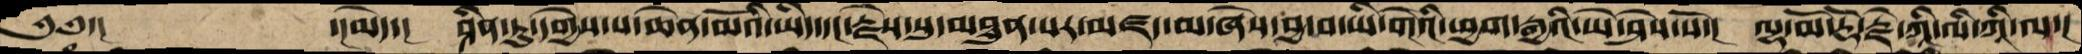༄༅་།        ་།མེད་།   ཤིན་ཏུ་དགྱེས་པ་ཆེན་མོའི་ཡིད་དང་རྗེས་སུ་མཐུན་པར་མཛད་མ་ཞེས་བྱ་བ་ཡི་གེའི་ཕྱག་རྒྱའི་ཡེ་ཤེས་སོ་།  ལྷ་མོ་རྡོ་རྗེ་ཀཱི་ལི་ཀཱི་ལ་།
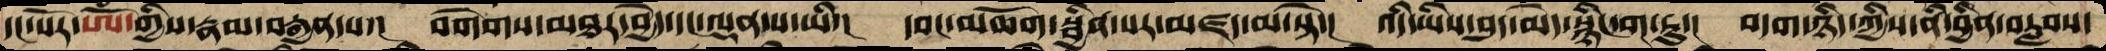དང་པོར་ཨོཾ་གྱིས་རྣམ་བརྒྱན་པ་།  བགེགས་མཐར་བྱེད་དང་ལྡན་པ་ཡི་།  དབང་མཆོག་སྦྱིན་པར་མཛད་མ་སྟེ་།  འདི་ཡིས་བུད་མེད་སྙིང་ག་རུ་།  བདག་ཉིད་ཀྱིས་ནི་བྱིན་བརླབས་
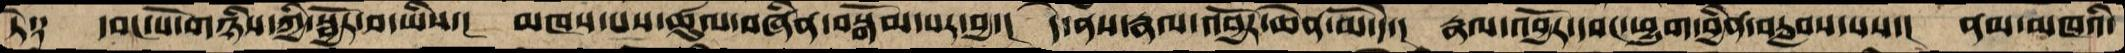ཏེ༑  དབང་པོ་གཉིས་ཀྱི་སྦྱོར་བ་ཡིས་།  མཁས་པས་ཚུལ་བཞིན་བསྒོམ་པར་བྱ་།  དེ་ནས་རྣལ་འབྱོར་ཆེན་མོ་དེ་།  རྣལ་འབྱོར་དབང་ཕྱུག་བྱིན་བརླབས་པས་།  ནམ་མཁའི་
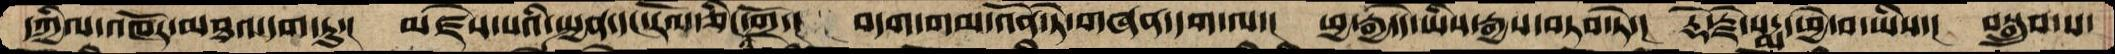དཀྱིལ་འཁོར་མཐའ་དག་ཏུ་།  མཛེས་པའི་སྤྱན་དང་རོལ་ཅིང་འགྲོ་།  བདག་གམ་འོན་ཏེ་གཞན་དག་ལ་།  ཕྱ་རྒྱ་དེ་ཡིས་རྒྱས་བཏབ་ཏེ་།  རྡོ་རྗེ་པདྨ་ཕྱེ་བ་ཡིས་།  བསྒྲུབ་པ་
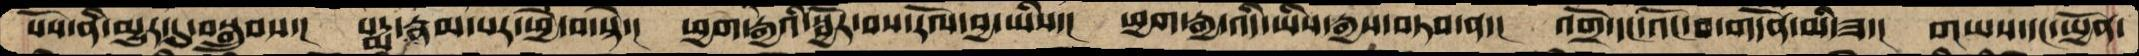པོས་ནི་མྱུར་དུ་བསྒྲུབས་།  པདྨ་རྣམ་པར་ཕྱེ་བ་སྟེ་།  ཕྱག་རྒྱའི་སྦྱོར་བས་རོལ་བྱ་ཡིས་།  ཕྱག་རྒྱ་འདི་ཡིས་རྒྱས་བཏབ་ན་།  འགྲོ་དང་འོང་བ་གདོན་མི་ཟ་།  གཡས་དང་ཡྱོན་
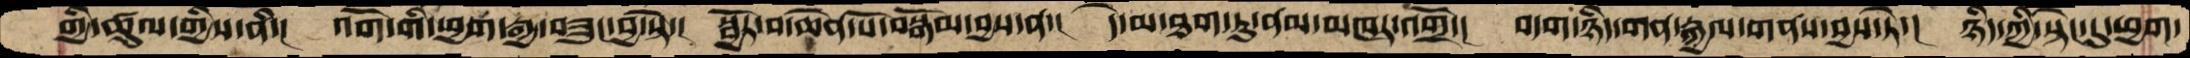གྱི་ཚུལ་གྱིས་ནི་།  འོག་གི་ཕྱག་རྒྱ་བཟུང་བྱ་སྟེ་།  སྦྱོར་བ་ཆེན་པོ་བསྒོམ་བྱས་ན་།  དེ་མ་ཐག་ཏུ་ནམ་མཁར་འགྲོ་།  བདག་ཉིད་གན་རྐྱལ་གནས་བྱས་ཏེ་།  ཉིད་ཀྱི་སྟེང་དུ་ཕྱག་
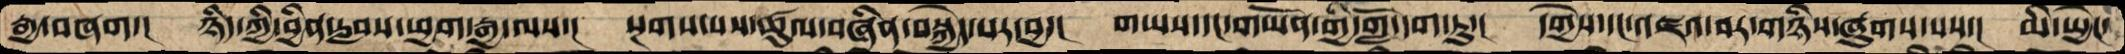རྒྱ་བཞག་།  ཉིད་ཀྱི་བྱིན་རླབས་ཕྱག་རྒྱ་ལས་།  སྔགས་པས་ཚུལ་བཞིན་བསྐྱེད་པར་བྱ་།  གཡས་དང་གཡོན་གྱི་གློ་དག་ཏུ་།  དགྱེས་དང་འཇའ་བར་གཉིས་ཞུགས་པས་།  མི་ཡྱེང་
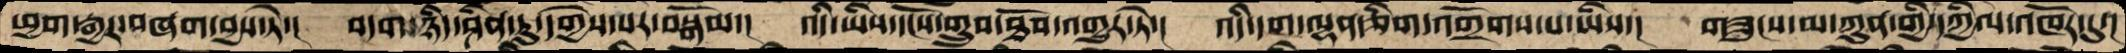ཕྱག་རྒྱར་བཞག་བྱས་ཏེ་།  བདག་ཉིད་ཤིན་ཏུ་དགྱེས་པར་བསྒོམ་།  འདི་ཡིས་དངོས་གྲུབ་ཐོབ་འགྱུར་ཏེ་།  འདི་དག་ལྷན་ཅིག་འགྲོགས་པ་ཡིས་།  གཟུངས་མ་ཀུན་གྱི་དཀྱིལ་འཁོར་དུ་།
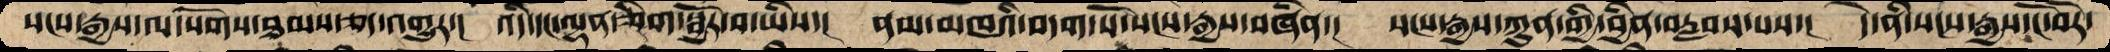སངས་རྒྱས་ལ་སོགས་ཐམས་ཅད་འགྱུར་།  འདི་དང་ལྡན་ཅིག་སྦྱོར་བ་ཡིས་།  ནམ་མཁའི་བདག་པོ་སངས་རྒྱས་བཞིན་།  སངས་རྒྱས་ཀུན་གྱི་བྱིན་བརླབས་པས་།  དེ་ནི་སངས་རྒྱས་ངོ་བོར་
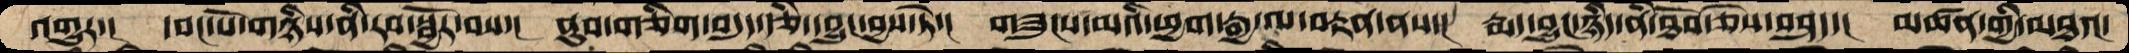འགྱུར་།  དབང་པོ་གཉིས་ནི་རབ་སྦྱོར་བས་།  ནུབ་གཅིག་བདུད་རྩི་དབྱུང་བྱས་ཏེ་།  གཟུངས་མའི་ཕྱག་རྒྱ་ལ་བརྟན་ནས་།  རྨད་བྱུང་ཉིད་ནི་ཐོབ་ཅེས་བཤད་།  མཚན་གྱི་མཐའ་
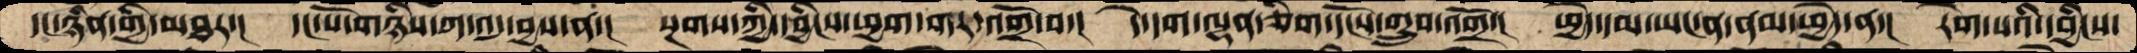དང་ཉིན་གྱི་མཐར་།  དང་པོ་གཉིས་ཀ་འདུ་བྱས་ན་།  སྔགས་ཀྱི་དབྱིངས་ཕྱག་གར་འགྲོ་བ་།  དེ་དག་ལྷན་ཅིག་དངོས་གྲུབ་འགྲོ་།  ཕྱེད་དམ་ཡང་ན་ནམ་ཕྱེད་ན་།  རེག་པའི་དབྱིངས་
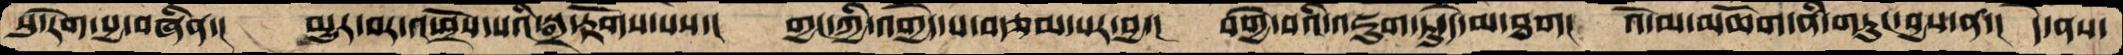སུ་རེག་བྱ་བཞིན་།  མྱུར་བར་འཕྲོས་པའི་སྒྲ་རྟོགས་པས་།  གྱང་ཀྱི་འགྱེད་པ་བརྩམ་པར་བྱ་།   བགྱེ་བའི་འཇུག་ཏུ་དེ་མ་ཐག།   འོ་མ་མཆོག་ནི་གཏུང་བྱས་ན་།  དེ་ནས་
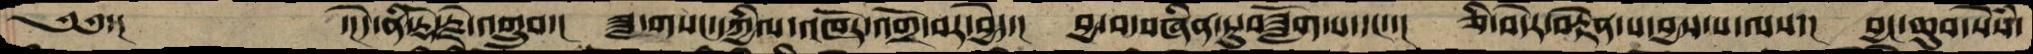༄༅་།            ་།དེ་ནི་རྡོ་རྗེ་འགྲུབ་།   ཟླ་གསང་དཀྱིལ་འཁོར་འགྲོ་བར་བྱེད་།  བྱ་བ་བཞིན་ཏུ་བཟློག་པ་དང་་།  ཅི་བདེར་བརྟེན་པ་བྱས་པ་ལས་།  བྱང་ཆུབ་སེཾས་
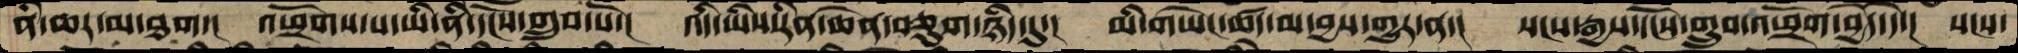ནི་ཆར་མ་ཐག་།   འཕྲོགས་པ་ཡི་ནི་དངོས་གྲུབ་པོ་།   འདི་ཡིས་རིན་ཆེན་བཅུག་ཉིད་དུ་།  མི་གཡེང་ཚད་མ་བྱས་གྱུར་ན་།  སངས་རྒྱས་དངོས་གྲུབ་འཕྲོག་བྱེད་དེ་།  སངས་
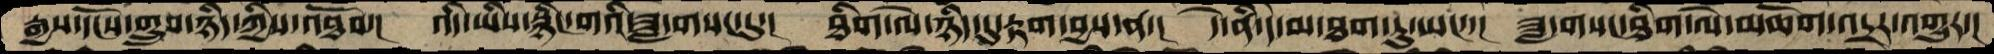རྒྱས་དངོས་གྲུབ་ཉིད་ཀྱིས་འཐོབ་།   འདི་ཡིས་སྙིང་གའི་ཟླ་གསང་དུ་།   ཐིག་ལེ་ཉིད་དུ་རྟག་བྱས་ན་།   དེ་ནི་དེ་མ་ཐག་ཏུ་ཡང་་།  ཟླ་གསང་ཐིག་ལེ་མཆོག་འདྲར་འགྱུར་།
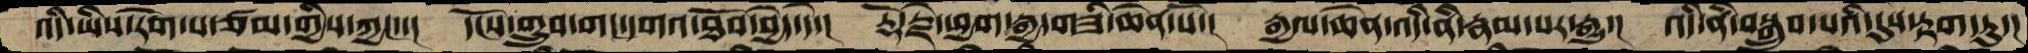འདི་ཡིས་རེག་པ་ཙམ་གྱིས་ཀྱང་་།  དངོས་གྲུབ་གང་དགའ་ཐོབ་བྱེད་དེ་།  རྡོ་རྗེ་ཕྱག་རྒྱ་གཟི་ཆེན་པོ་།  རྒྱལ་ཆེན་འདི་ནི་རྣམ་པར་རྒྱུ་།  འདི་ནི་བསྒྲུབ་པའི་དུས་རྟག་ཏུ་།
